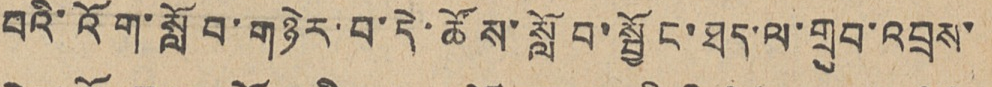བའི་འོག་སློབ་གཉེར་བ་དེ་ཚོས་སློབ་སྦྱོང་ཐད་ལ་གྲུབ་འབྲས་་
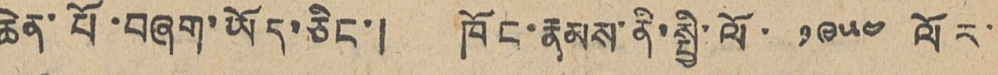ཆེན་པོ་བཞག་ཡོད་ཅིང་། ཁོང་རྣམས་ནི་སྤྱི་ལོ་ ༡༩༥༤ ལོར་
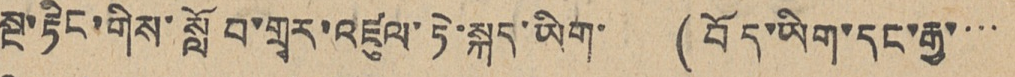སྔ་རྟིང་གིས་སློབ་གྲྭར་འཛུལ་ཏེ་སྐད་ཡིག་ (བོད་ཡིག་དང་རྒྱ་་་་
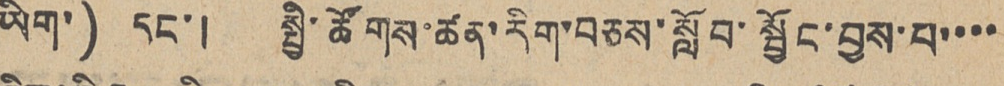ཡིག་) དང་། སྤྱི་ཚོགས་ཚན་རིག་བཅས་སློབ་སྦྱོང་བྱས་པ་་་་
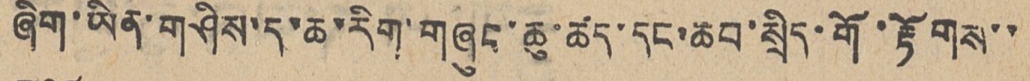ཞིག་ཡིན་གཤིས་ད་ཆ་རིག་གཞུང་ཆུ་ཚད་དང་ཆབ་སྲིད་གོ་རྟོགས་་
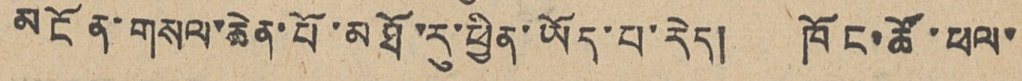མངོན་གསལ་ཆེན་པོ་མཐོ་རུ་ཕྱིན་ཡོད་པ་རེད། ཁོང་ཚོ་ཕལ་
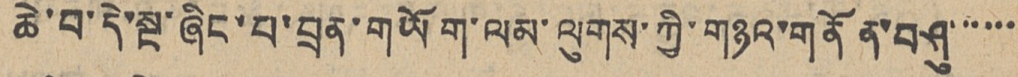ཆེ་བ་དེ་སྔ་ཞིང་པ་བྲན་གཡོག་ལམ་ལུགས་ཀྱི་གཉའ་གནོན་བཤུ་་་་་་
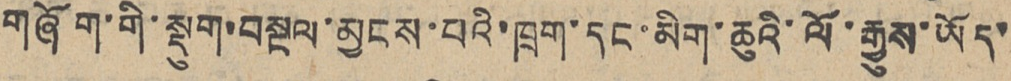གཞོག་གི་སྡུག་བསྔལ་མྱངས་པའི་ཁྲག་དང་མིག་ཆུའི་ལོ་རྒྱུས་ཡོད་
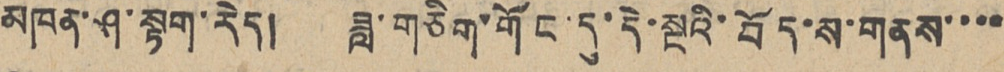མཁན་ཤ་སྟག་རེད། ཟླ་གཅིག་གོང་དུ་དེ་སྔའི་བོད་ས་གནས་་་་
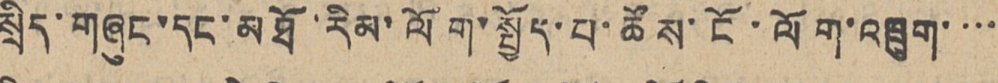སྲིད་གཞུང་དང་མཐོ་རིམ་ལོག་སྤྱོད་པ་ཚོས་ངོ་ལོག་འཁྲུག་་་་
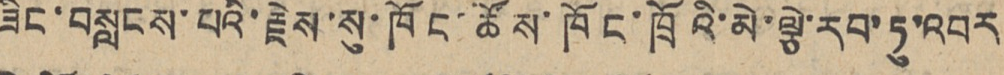ཟིང་བསླངས་པའི་རྗེས་སུ་ཁོང་ཚོས་ཁོང་ཁྲོའི་མེ་ལྕེ་རབ་ཏུ་འབར
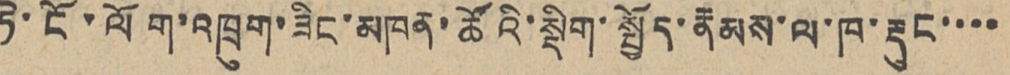ཏེ་ངོ་ལོག་འཁྲུག་ཟིང་མཁན་ཚོའི་སྡེག་སྤྱོད་རྣམས་ལ་ཁ་རྡུང་་་་
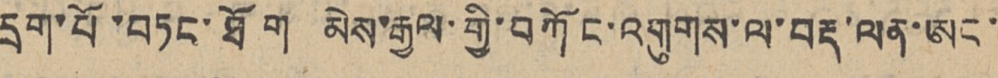དྲག་པོ་བཏང་ཐོག མེས་རྒྱལ་གྱི་བཀོང་འགུགས་ལ་བརྡ་ལན་ཨང་
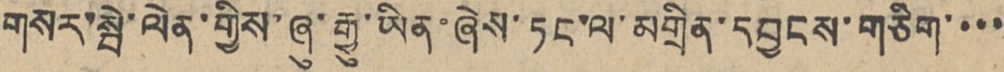གསར་སྦེ་ལེན་གྱིས་ཞུ་རྒྱུ་ཡིན་ཞེས་ཏང་ལ་མགྲིན་དབྱངས་གཅིག་་་་
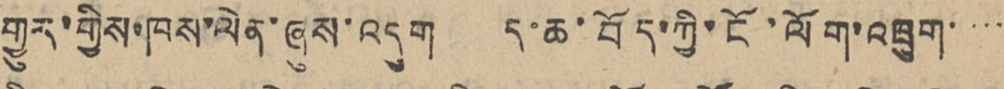གྱུར་གྱིས་ཁས་ལེན་ཞུས་འདུག ད་ཆ་བོད་ཀྱི་ངོ་ལོག་བཁྲུག་་་་
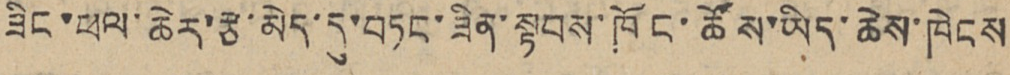ཟིང་ཕལ་ཆེར་རྩ་མེད་དུ་བཏང་ཟིན་སྟབས་ཁོང་ཚོས་ཡིད་ཆེས་ཁེངས
